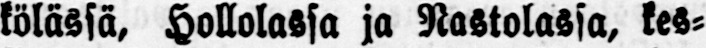kölässä, Hollolassa ja Nastolassa, kes-
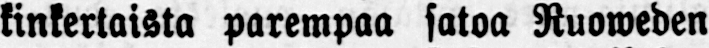kinkertaista parempaa satoa Ruoweden
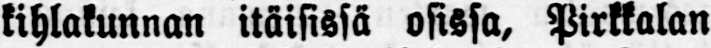kihlakunnan itäisissä osissa, Pirkkalan
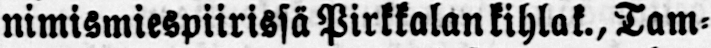nimismiespiirissä Pirkkalan kihlak., Tam-
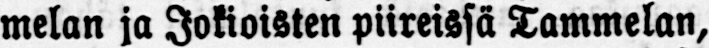melan ja Jokioisten piireissä Tammelan,
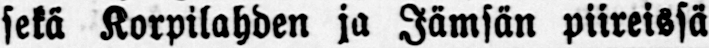sekä Korpilahden ja Jämsän piireissä
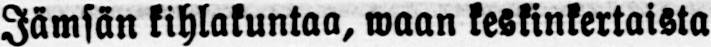Jämsän kihlakuntaa, waan keskinkertaista
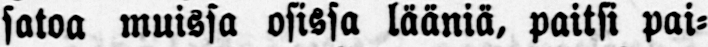satoa muissa osissa lääniä, paitsi pai-
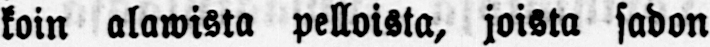koin alawista pelloista, joista sadon
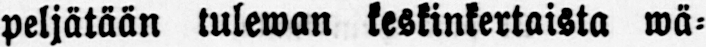peljätään tulewan keskinkertaista wä-
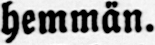hemmän.
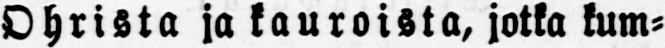Ohrista ja kauroista, jotka kum-
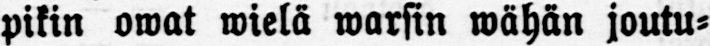pikin owat wielä warsin wähän joutu-
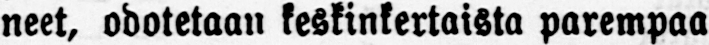neet, odotetaan keskinkertaista parempaa
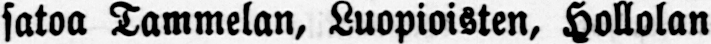satoa Tammelan, Luopioisten, Hollolan
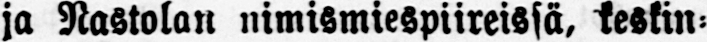ja Nastolan nimismiespiireissä, keskin-
